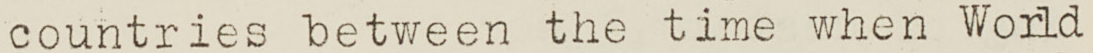countries between the time when world
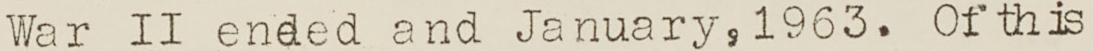War II ended and January, 1963. Of this
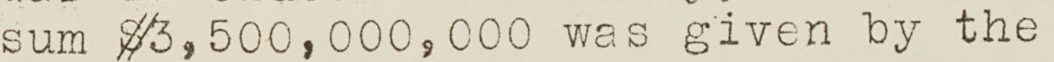sum $3,500,000,000 was given by the
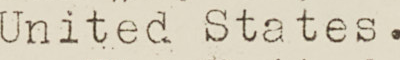United States.
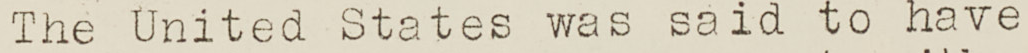The United States was said to have
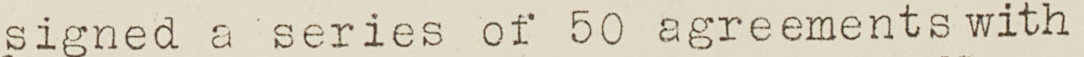signed a series of 50 agreements with
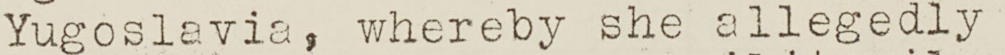Yugoslavia, whereby she allegedly
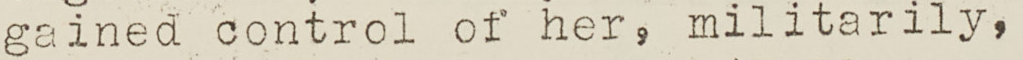gained control of her, militarily,
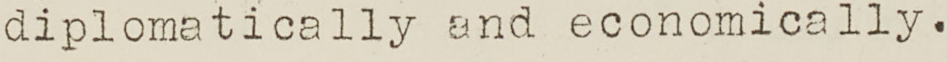diplomatically and economically.
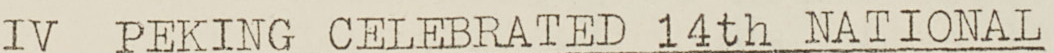IV PEKING CELEBRATED 14th NATIONAL
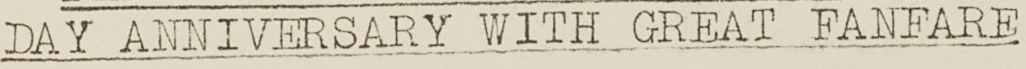DAY ANNIVERSARY WITH GREAT FANFARE
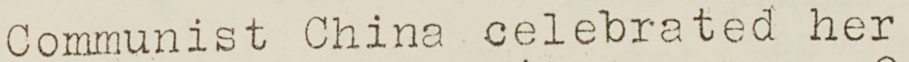Communist China celebrated her
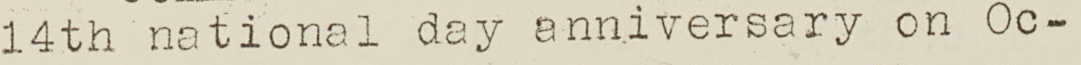14th national day anniversary on Oc-
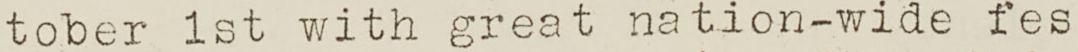tober 1st with great nation-wide fes
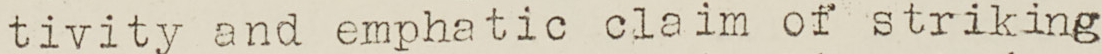tivity and emphatic claim of striking
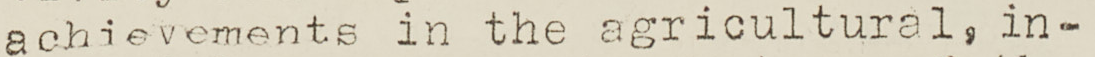achievements in the agricultural, in-
